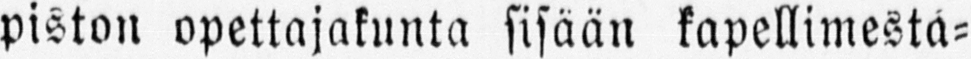piston opettajakunta sisään kapellimesta-
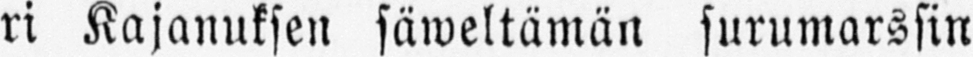ri Kajanuksen säweltämän surumarssin
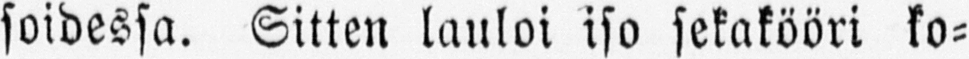soidessa. Sitten lauloi iso sekakööri ko-
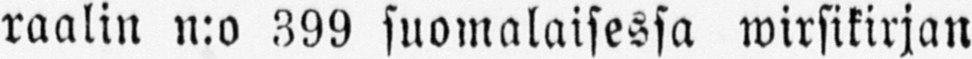raalin n:o 399 suomalaisessa wirsikirjan
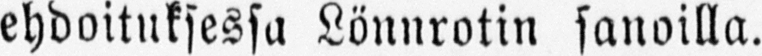ehdoituksessa Lönnrotin sanoilla.
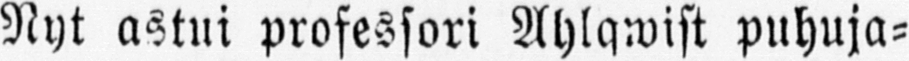Nyt astui professori Ahlqwist puhuja-
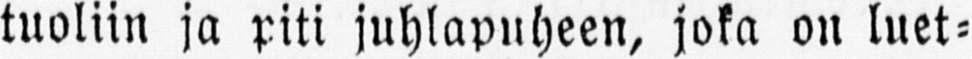tuoliin ja piti juhlapuheen, joka on luet-
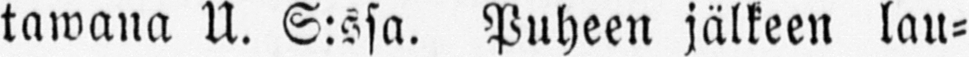tawaan U. S:ssa. Puheen jälkeen lau-
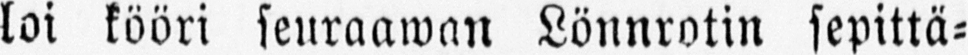loi kööri seuraawan Lönnrotin sepittä-
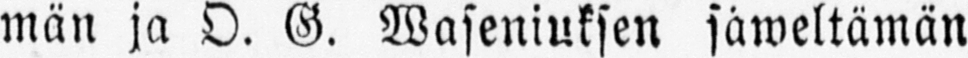män ja O. G. Waseniuksen säweltämän
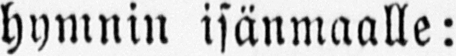hymnin isänmaalle:
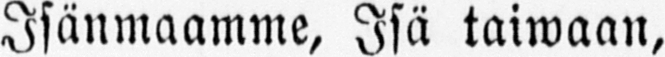Isänmaamme, Isä taiwaan,
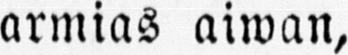armias aiwan,
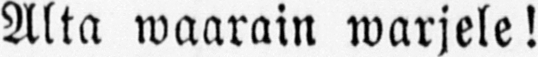Alta waarain warjele!
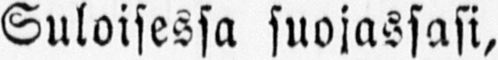Suloisessa suojassasi,
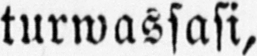turwassasi,
